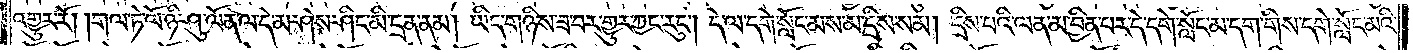འགྱུར་རོ། །གལ་ཏེ་ལོ་ཉི་ཤུ་ལོན་ལ་དེ་མ་ཤེས་ཤིང་མི་དྲན་ནམ། ཡིད་གཉིས་ཟ་བར་གྱུར་ཀྱང་རུང༌། དེ་ལ་དགེ་སློང་མས་མ་དྲིས་སམ། དྲིས་པའི་ལན་མ་བྱིན་པར་དེ་དགེ་སློང་མ་དག་གིས་དགེ་སློང་མའི་
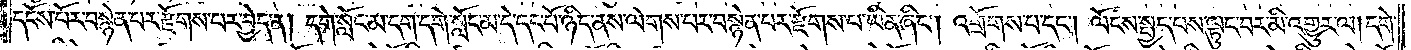དངོས་པོར་བསྙེན་པར་རྫོགས་པར་བྱེད་ན། དགེ་སློང་མ་དག་དགེ་སློང་མ་དེ་དང་པོ་ཉིད་ནས་ལེགས་པར་བསྙེན་པར་རྫོགས་པ་ཡིན་ཞིང༌། འགྲོགས་པ་དང༌། ལོངས་སྤྱད་པས་ལྟུང་བར་མི་འགྱུར་ལ། དགེ་
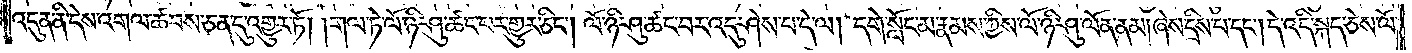འདུན་ནི་དེས་འགལ་ཚབས་ཅན་དུ་འགྱུར་ཏོ། །གལ་ཏེ་ལོ་ཉི་ཤུ་ཚང་བར་གྱུར་ཅིང༌། ལོ་ཉི་ཤུ་ཚང་བར་འདུ་ཤེས་པ་དེ་ལ། དགེ་སློང་མ་རྣམས་ཀྱིས་ལོ་ཉི་ཤུ་ལོན་ནམ། ཞེས་དྲིས་པ་དང༌། དེ་འདི་སྐད་ཅེས་ལོ་
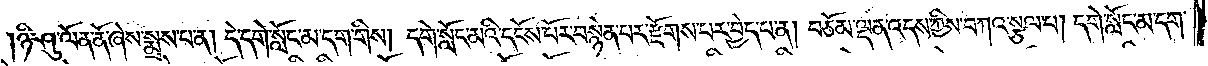ཉི་ཤུ་ལོན་ནོ་ཞེས་སྨྲས་པ་ན། དེ་དགེ་སློང་མ་དག་གིས། དགེ་སློང་མའི་དངོས་པོར་བསྙེན་པར་རྫོགས་པར་བྱེད་པ་ན། བཅོམ་ལྡན་འདས་ཀྱིས་བཀའ་སྩལ་པ། དགེ་སློང་མ་དག་
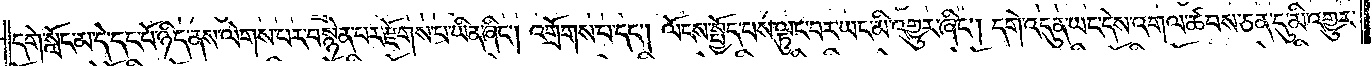དགེ་སློང་མ་དེ་དང་པོ་ཉིད་ནས་ལེགས་པར་བསྙེན་པར་རྫོགས་པ་ཡིན་ཞིང༌། འགྲོགས་པ་དང༌། ལོངས་སྤྱོད་པས་ལྟུང་བར་ཡང་མི་འགྱུར་ཞིང༌། དགེ་འདུན་ཡང་དེས་འགལ་ཚབས་ཅན་དུ་མི་འགྱུར་
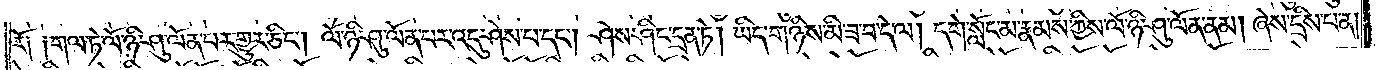རོ༑ ༑གལ་ཏེ་ལོ་ཉི་ཤུ་ལོན་པར་གྱུར་ཅིང༌། ལོ་ཉི་ཤུ་ལོན་པར་འདུ་ཤེས་པ་དང༌། ཤེས་ཤིང་དྲན་ཏེ། ཡིད་གཉིས་མི་ཟ་བ་དེ་ལ། དགེ་སློང་མ་རྣམས་ཀྱིས་ལོ་ཉི་ཤུ་ལོན་ནམ། ཞེས་དྲིས་པ་ན།
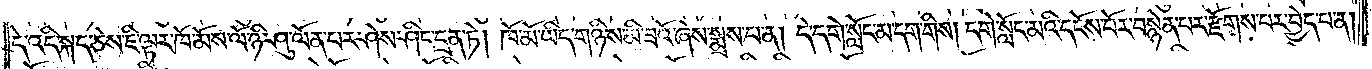དེ་འདི་སྐད་ཅེས་ཇི་ལྟར་ཁོ་མོས་ལོ་ཉི་ཤུ་ལོན་པར་ཤེས་ཤིང་དྲན་ཏེ། ཁོ་མོ་ཡིད་གཉིས་མི་ཟའོ་ཞེས་སྨྲས་པ་ན། དེ་དགེ་སློང་མ་དག་གིས། དགེ་སློང་མའི་དངོས་པོར་བསྙེན་པར་རྫོགས་པར་བྱེད་པ་ན།
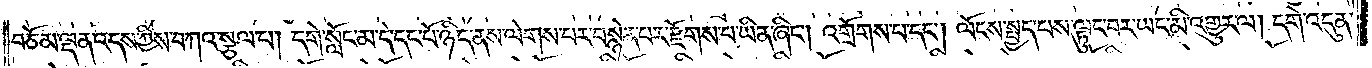བཅོམ་ལྡན་འདས་ཀྱིས་བཀའ་སྩལ་པ། དགེ་སློང་མ་དེ་དང་པོ་ཉིད་ནས་ལེགས་པར་བསྙེན་པར་རྫོགས་པ་ཡིན་ཞིང༌། འགྲོགས་པ་དང༌། ལོངས་སྤྱད་པས་ལྟུང་བར་ཡང་མི་འགྱུར་ལ། དགེ་འདུན་
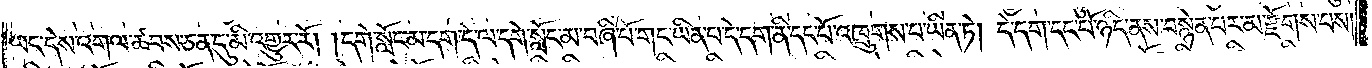ཡང་དེས་འགལ་ཚབས་ཅན་དུ་མི་འགྱུར་རོ། །དགེ་སློང་མ་དག་དེ་ལ་དགེ་སློང་མ་བཞི་པོ་གང་ཡིན་པ་དེ་དག་ནི་དང་པོ་འཁྲུགས་པ་ཡིན་ཏེ། དེ་དག་དང་པོ་ཉིད་ནས་བསྙེན་པར་མ་རྫོགས་པས།
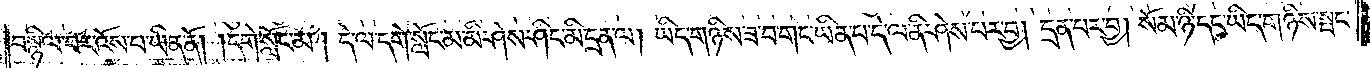བསྙིལ་བར་འོས་པ་ཡིན་ནོ། །དགེ་སློང་མ། དེ་ལ་དགེ་སློང་མ་མི་ཤེས་ཤིང་མི་དྲན་ལ། ཡིད་གཉིས་ཟ་བ་གང་ཡིན་པ་དེ་ལ་ནི་ཤེས་པར་བྱ། དྲན་པར་བྱ། སོམ་ཉི་དང་ཡིད་གཉིས་སྤང་
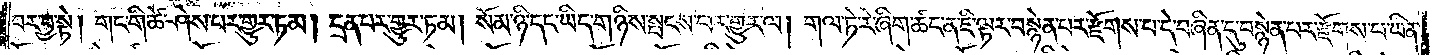བར་བྱ་སྟེ། གང་གི་ཚེ་ཤེས་པར་གྱུར་ཏམ། དྲན་པར་གྱུར་ཏམ། སོམ་ཉི་དང་ཡིད་གཉིས་སྤངས་པར་གྱུར་ལ། གལ་ཏེ་རེ་ཞིག་ཚང་ན་ཇི་ལྟར་བསྙེན་པར་རྫོགས་པ་དེ་བཞིན་དུ་བསྙེན་པར་རྫོགས་པ་ཡིན་
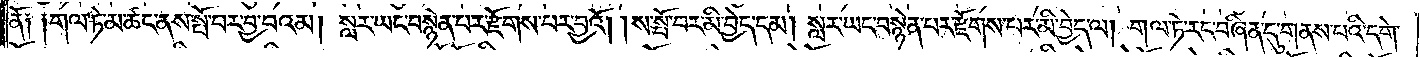ནོ༑ ༑གལ་ཏེ་མ་ཚང་ནས་སྤོ་བར་བྱ་བའམ། སླར་ཡང་བསྙེན་པར་རྫོགས་པར་བྱའོ། །ས་སྤོ་བར་མི་བྱེད་དམ། སླར་ཡང་བསྙེན་པར་རྫོགས་པར་མི་བྱེད་ལ། གལ་ཏེ་རང་བཞིན་དུ་གནས་པའི་དགེ་
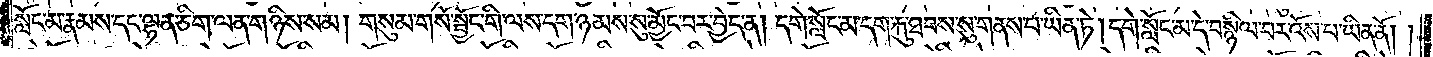སློང་མ་རྣམས་དང་ལྷན་ཅིག་ལན་གཉིས་སམ། གསུམ་གསོ་སྦྱོང་གི་ལས་དག་ཉམས་སུ་མྱོང་བར་བྱེད་ན། དགེ་སློང་མ་དག་རྐུ་ཐབས་སུ་གནས་པ་ཡིན་ཏེ། དགེ་སློང་མ་དེ་བསྙིལ་བར་འོས་པ་ཡིན་ནོ། །
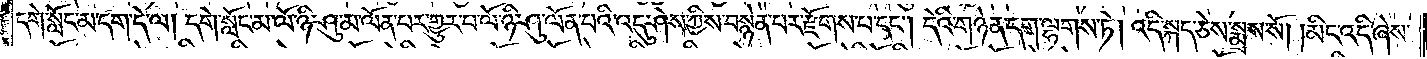དགེ་སློང་མ་དག་དེ་ལ། དགེ་སློང་མ་ལོ་ཉི་ཤུ་མ་ལོན་པར་གྱུར་པ་ལོ་ཉི་ཤུ་ལོན་པའི་འདུ་ཤེས་ཀྱིས་བསྙེན་པར་རྫོགས་པ་དང༌། དེའི་གཉེན་དག་ལྷགས་ཏེ། འདི་སྐད་ཅེས་སྨྲས་སོ། །མིང་འདི་ཞེས་
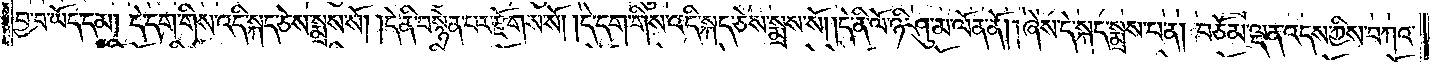བྱ་བ་ཡོད་དམ། དེ་དག་གིས་འདི་སྐད་ཅེས་སྨྲས་སོ། །དེ་ནི་བསྙེན་པར་རྫོགས་སོ། །དེ་དག་གིས་འདི་སྐད་ཅེས་སྨྲས་སོ། །དེ་ནི་ལོ་ཉི་ཤུ་མ་ལོན་ནོ། །ཞེས་དེ་སྐད་སྨྲས་པ་ན། བཅོམ་ལྡན་འདས་ཀྱིས་བཀའ་
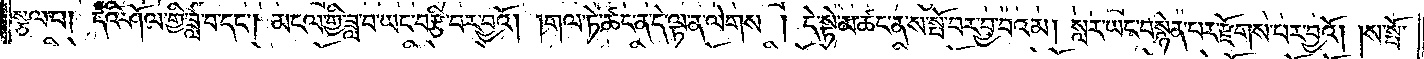སྩལ་པ། དེའི་ཤོལ་གྱི་ཟླ་བ་དང༌། མངལ་གྱི་ཟླ་བ་ཡང་བརྩི་བར་བྱའོ། །གལ་ཏེ་ཚང་ན་དེ་ལྟ་ན་ལེགས། །དེ་སྟེ་མ་ཚང་ན་ས་སྤོ་བར་བྱ་བའམ། སླར་ཡང་བསྙེན་པར་རྫོགས་པར་བྱའོ། །ས་སྤོ་
